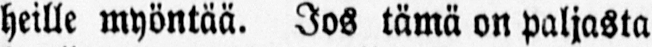heille myöntää. Jos tämä on paljasta
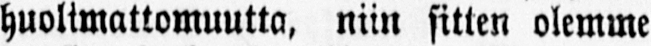huolimattomuutta, niin sitten olemme
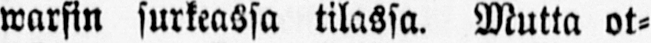warsin surkeassa tilassa. Mutta ot-
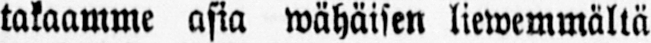takaamme asia wähäisen liewemmältä
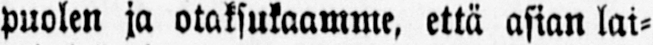puolen ja otaksukaamme, että asian lai-
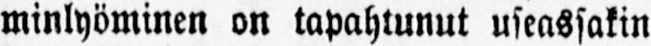minlyöminen on tapahtunut useassakin
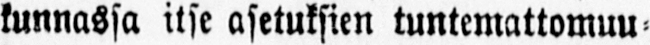kunnassa itse asetuksien tuntemattomuu-
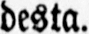desta.
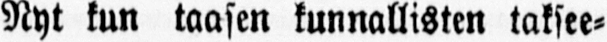Nyt kun taasen kunnallisten taksee-
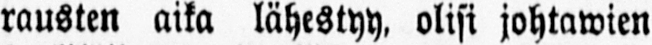rausten aika lähestyy, olisi johtawien
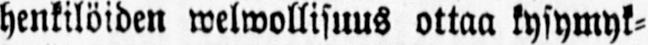henkilöiden welwollisuus ottaa kysymyk-
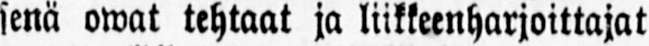senä owat tehtaat ja liikkeenharjoittajat
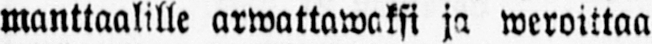manttaalille arwattawaksi ja weroittaa
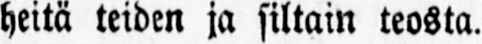heitä teiden ja siltain teosta.
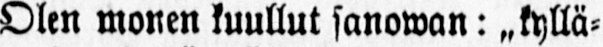Olen monen kuullut sanowan: „kyllä-
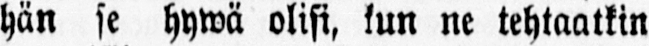hän se hywä olisi, kun ne tehtaatkin
